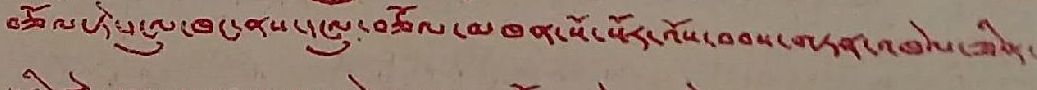བཅོལ་ཏེ་དངུལ་ཁང་ནས་དངུལ་བཅོལ་མཁན་སོ་སོར་འོས་བབས་གཏན་འཁེལ་ཟིན་
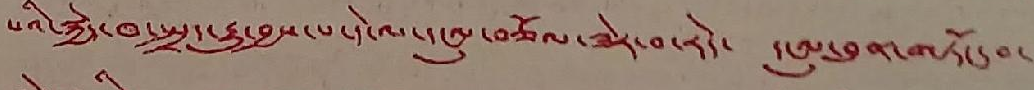པའི་སྐྱེད་ཁ་སྤྲད་རྒྱུ་བྱས་པ་དེ་ལ་དངུལ་བཅོལ་ཟེར་བ་རེད་ དངུལ་བུན་གཏོང་བ་
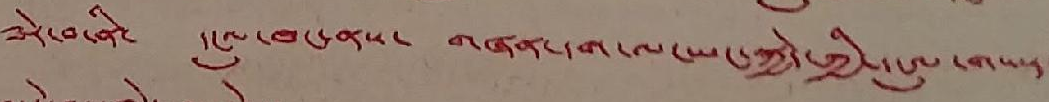ཟེར་བ་ནི་ དངུལ་ཁང་ནས་ གཞན་དག་ལ་ཡང་སྐྱེད་ཀྱི་དངུལ་གསར་
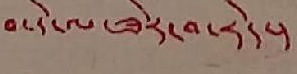བ་དེ་ལ་ཟེར་བ་རེད་།
